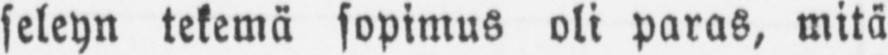seleyn tekemä sopimus oli paras, mitä
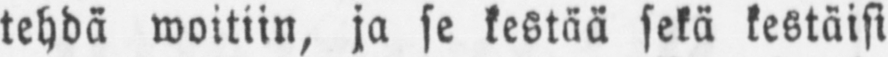tehdä woitiin, ja se kestää sekä kestäisi
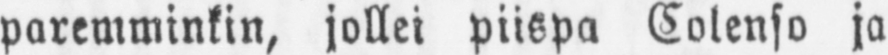paremminkin, jollei piispa Colenso ja
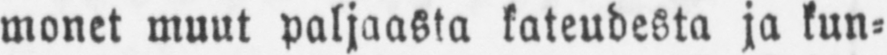monet muut paljaasta kateudesta ja kun-
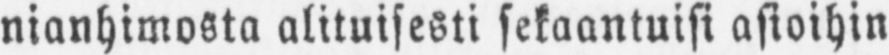nianhimosta alituisesti sekaantuisi asioihin
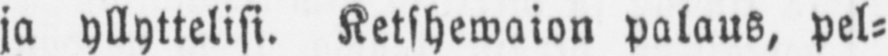ja yllyttelisi. Ketshewaion palaus, pel-
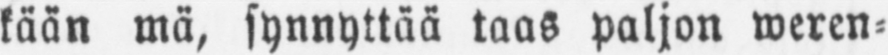kään mä, synnyttää taas paljon weren-
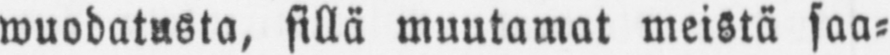wuodatusta, sillä muutamat meistä saa-
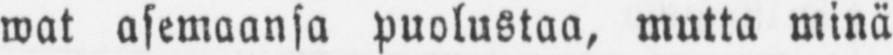wat asemaansa puolustaa, mutta minä
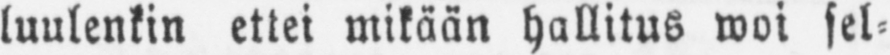luulenkin ettei mikään hallitus woi sel-
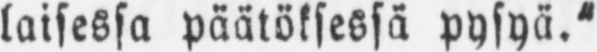laisessa päätöksessä pysyä."
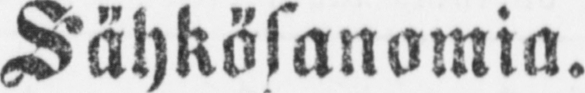Sähkölanomia.
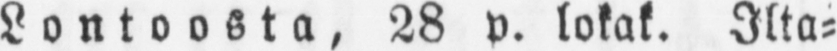Lontoosta, 28 v. lokak. Ilta-
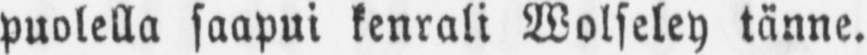puolella saapui kenrali Wolseley tänne.
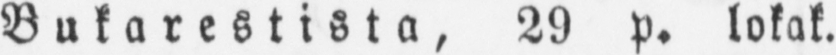Bukarestista, 29 p. lokak.
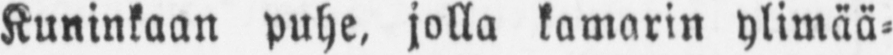Kuninkaan puhe, jolla kamarin ylimää-
